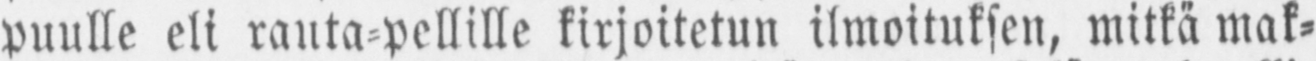puulle eli rauta-pellille kirjoitetun ilmoituksen, mitkä mak-
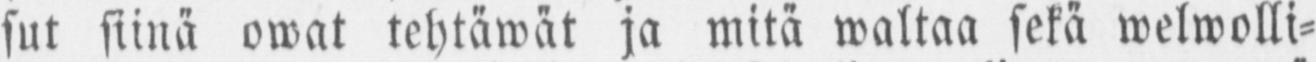sut siinä owat tehtäwät ja mitä wlttaa sekä welwolli-
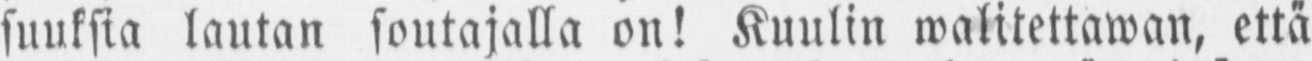suuksia lautan soutajalla on! Kuulin walitettawan, että
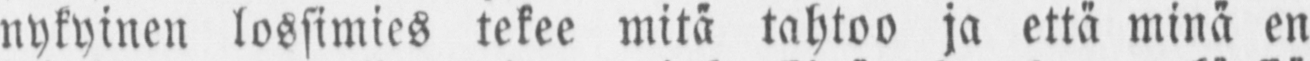nykyinen lossimies tekee mitä tahtoo ja että minä en
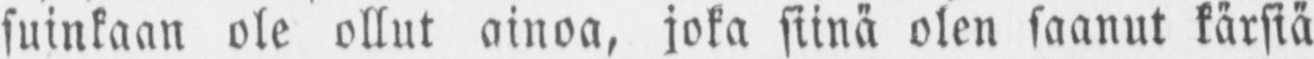suinkaan ole ollut ainoa, joka siinä olen saanut kärsiä
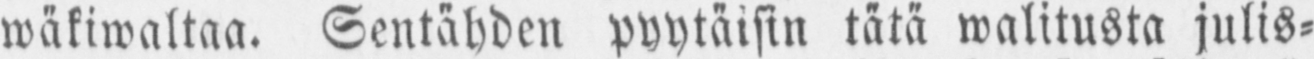wäkiwaltaa. Sentähden pyytäisin tätä walitusta julis-
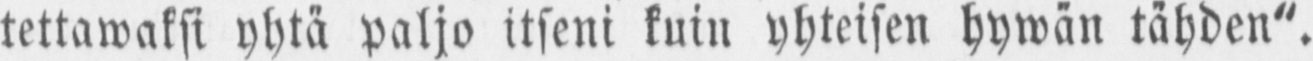tettawaksi yhtä paljo itseni kuin yhteisen hywän tähden".
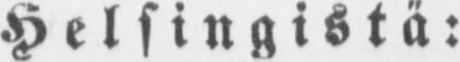Helsingistä:
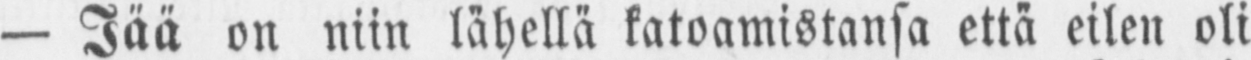— Jää on niin lähellä katoamistansa että eilen oli
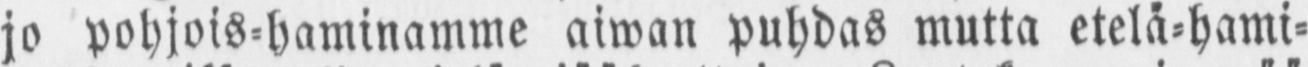jo pohjois-haminamme aiwan puhdas mutta etelä-hami-
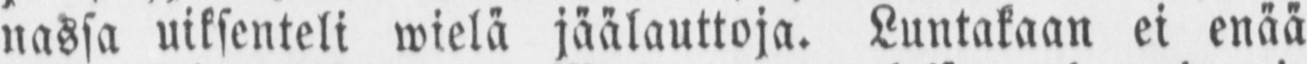nassa uiksenteli wielä jäälauttoja. Luntakaan ei enää
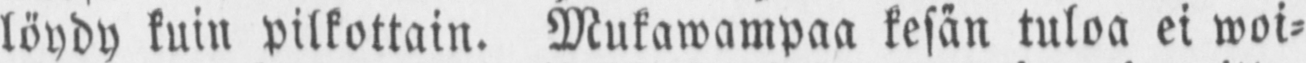löydy kuin pilkottain. Mukawampaa kesän tuloa ei woi-
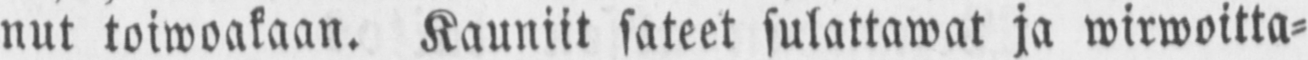nut toiwoakaan. Kauniit sateet sulattawat ja wirwoitta-
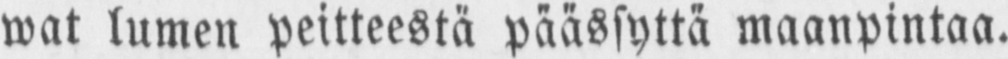wat lumen peitteestä päässyttä maanpintaa.
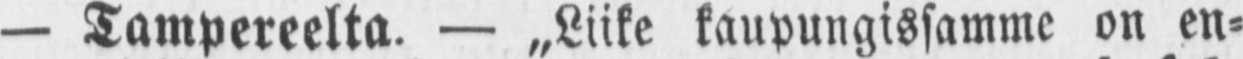— Tampereelta. — „Liike kaupungissamme on en-
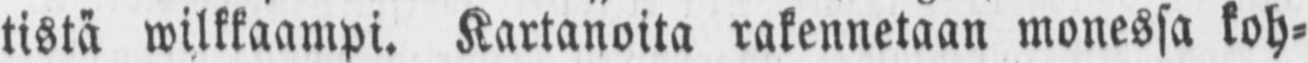tistä wilkkaampi. Kartanoita rakennetaan monessa koh-
